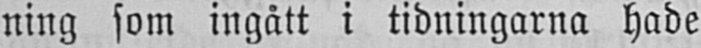ning som ingått i tidningarna hade
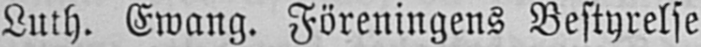Luth. Ewang. Föreningens Bestyrelse
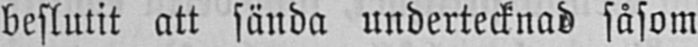beslutit att sända undertecknad såsom
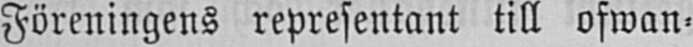Föreningens representant till ofwan-
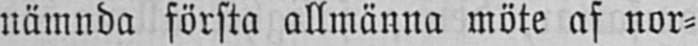nämnda första allmänna möte af nor-
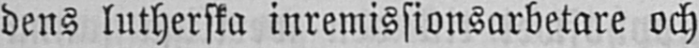dens lutherska inremissionsarbetare och
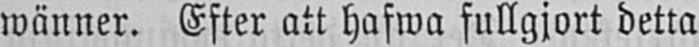wänner. Efter att hafwa fullgjort detta
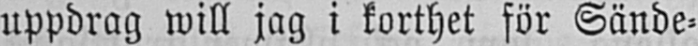uppdrag will jag i korthet för Sände-
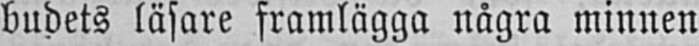budets läsare framlägga några minnen
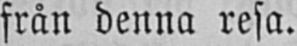från denna resa.
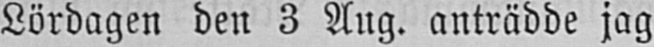Lördagen den 3 Aug. anträdde jag
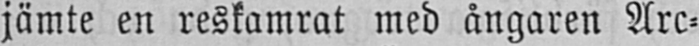jämte en reskamrat med ångaren Arc-
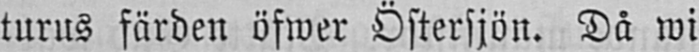turus färden öfwer Östersjön. Då wi
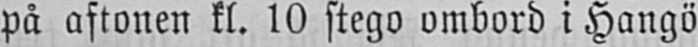på aftonen kl. 10 stego ombord i Hangö
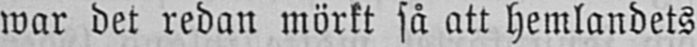war det redan mörkt så att hemlandets
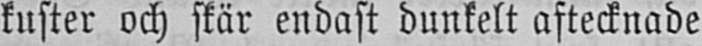kuster och skär endast dunkelt aftecknade
